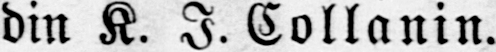din K. J. Collanin.
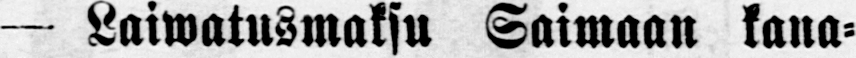— Laiwatusmaksu Saimaan kana-
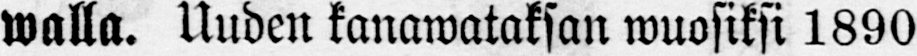walla. Uuden kanawataksan wuosiksi 1890
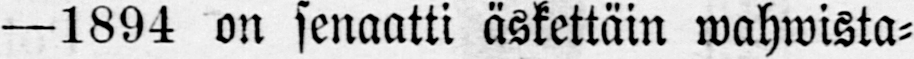—1894 on senaatti äskettäin wahwista-
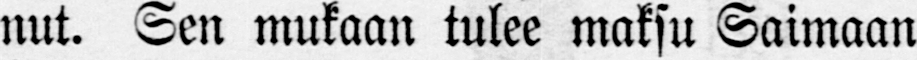nut. Sen mukaan tulee maksu Saimaan
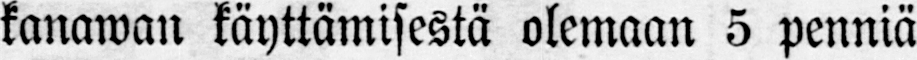kanawan käyttämisestä olemaan 5 penniä
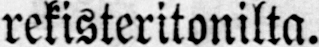rekisteritonilta.
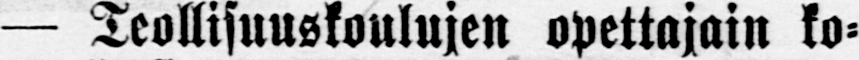— Teollisuuskoulujen opettajain ko-
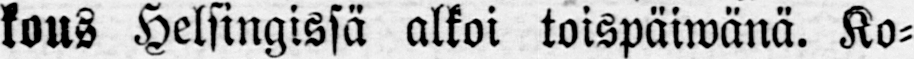kous Helsingissä alkoi toispäiwänä. Ko-
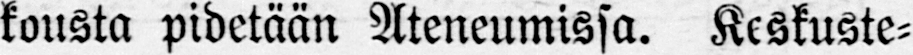kousta pidetään Ateneumissa. Keskuste-
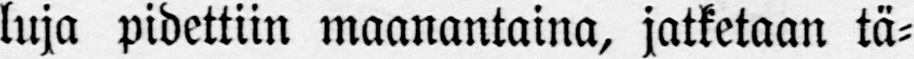luja pidettiin maanantaina, jatketaan tä-
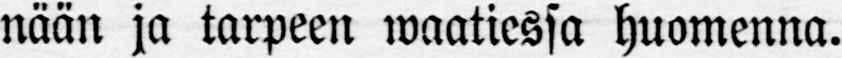nään ja tarpeen waatiessa huomenna.
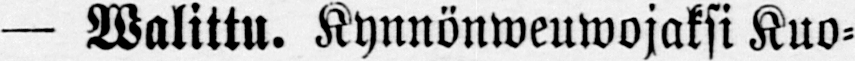— Walittu. Kynnönweuwojaksi Kuo-
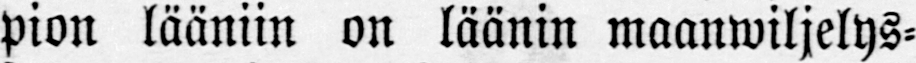pion lääniin on läänin maanwiljelys-
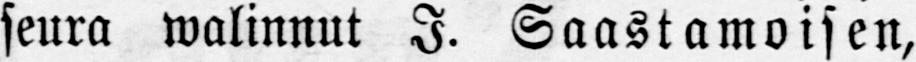seura walinnut I. Saastamoisen,
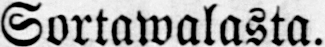Sortawalasta.
